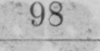98
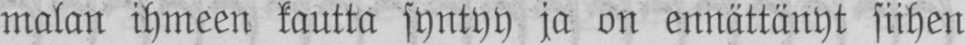malan ihmeen kautta syntyy ja on ennättänyt siihen
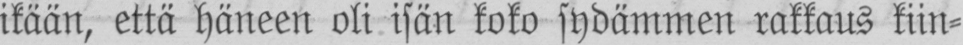ikään, että häneen oli isän koko sydämmen rakkaus kiin-
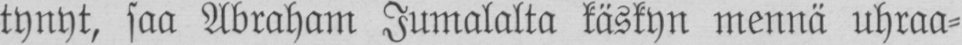tynyt, saa Abraham Jumalalta käskyn mennä uhraa-
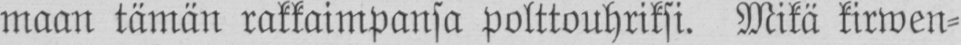maan tämän rakkaimpansa polttouhriksi. Mikä kirwen-
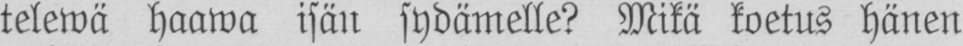telewä haawa isän sydämelle? Mikä koetus hänen
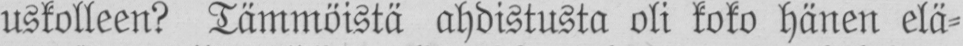uskolleen? Tämmöistä ahdistusta oli koko hänen elä-
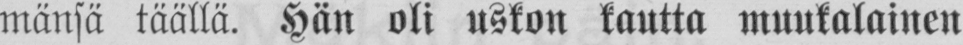mänsä täällä. Hän oli uskon kautta muukalainen
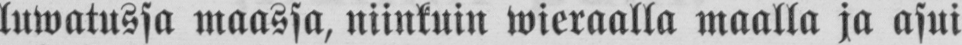luwatussa maassa, niinkuin wieraalla maalla ja asui
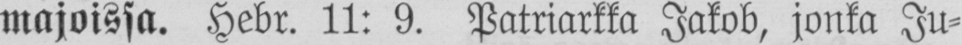majoissa. Hebr. 11: 9. Patriarkka Jakob, jonka Ju-
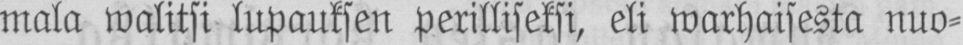mala walitsi lupauksen perilliseksi, eli warhaisesta nuo-
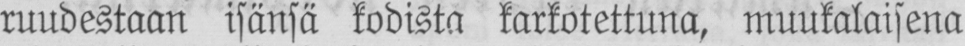ruudestaan isänsä kodista karkotettuna, muukalaisena
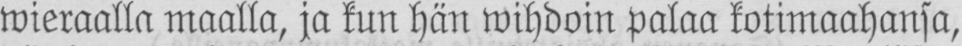wieraalla maalla, ja kun hän wihdoin palaa kotimaahansa,
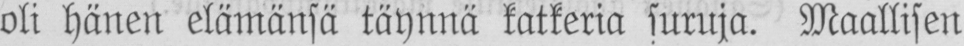oli hänen elämänsä täynnä katkeria suruja. Maallisen
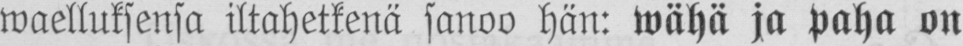waelluksensa iltahetkenä sanoo hän: wähä ja paha on
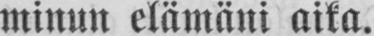minun elämäni aika.
